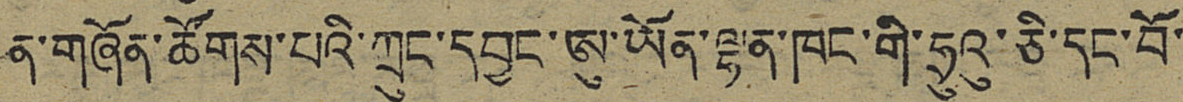ན་གཞོན་ཚོགས་པའི་ཀྲུང་དབྱང་ཨུ་ཡོན་ལྷན་ཁང་གི་ཧྲུའུ་ཅི་དང་བོ་
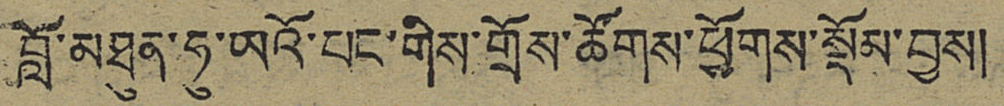བློ་མཐུན་ཧུ་ཡའོ་པང་གིས་གྲོས་ཚོགས་ཕྱོགས་སྡོམ་བྱས།
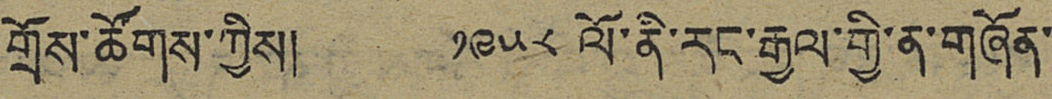གྲོས་ཚོགས་ཀྱིས། ༡༩༥༨ ལོ་ནི་རང་རྒྱལ་གྱི་ན་གཞོན་
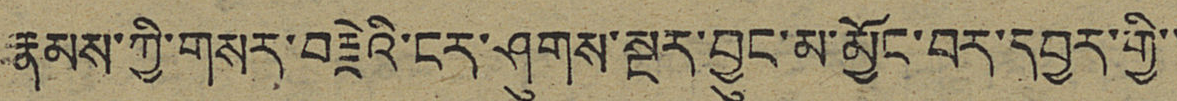རྣམས་ཀྱི་གསར་བརྗེའི་ངར་ཤུགས་སྔར་བྱུང་མ་མྱོང་བར་དབྱར་གྱི་་
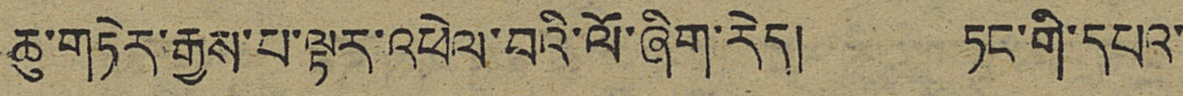ཆུ་གཏེར་རྒྱས་པ་ལྟར་འཕེལ་བའི་ལོ་ཞིག་རེད། ཏང་གི་དཔའ་
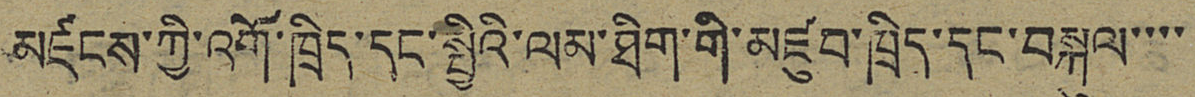མཛངས་ཀྱི་འགོ་ཁྲིད་དང་སྤྱིའི་ལམ་ཐིག་གི་མཛུབ་ཁྲིད་དང་བསྐུལ་་་་
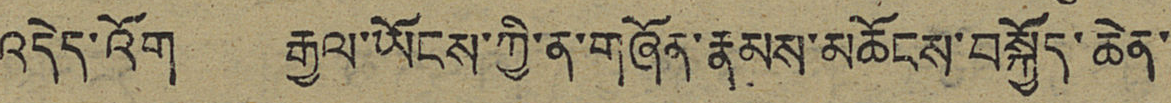འདེད་འོག རྒྱལ་ཡོངས་ཀྱི་ན་གཞོན་རྣམས་མཆོངས་བསྐྱོད་ཆེན་
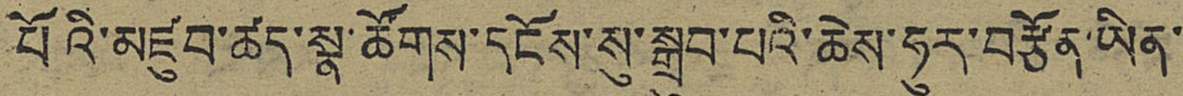པོའི་མཛུབ་ཚད་སྣ་ཚོགས་དངོས་སུ་སྒྲུབ་པའི་ཆེས་ཧུར་བརྩོན་ཡིན་
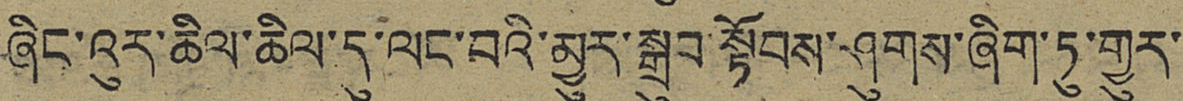ཞིང་འུར་ཆིལ་ཆིལ་དུ་ལང་བའི་མྱུར་སྒྲུབ་སྟོབས་ཤུགས་ཞིག་ཏུ་གྱུར་
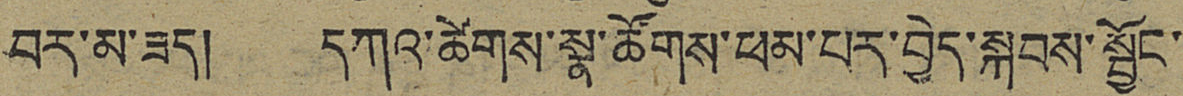བར་མ་ཟད། དཀའ་ཚེགས་སྣ་ཚོགས་ཕམ་པར་བྱེད་སྐབས་སྦྱོང་
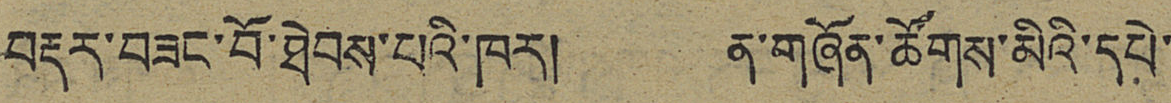བརྡར་བཟང་བོ་ཐེབས་པའི་ཁར། ན་གཞོན་ཚོགས་མིའི་དཔེ་
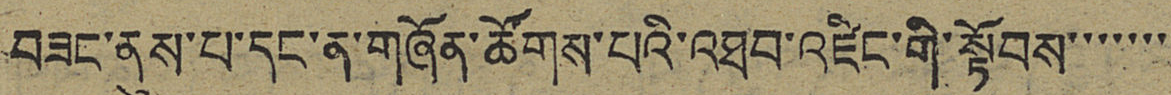བཟང་ནུས་པ་དང་ན་གཞོན་ཚོགས་པའི་འཐབ་འཛིང་གི་སྟོབས་་་་་་་་
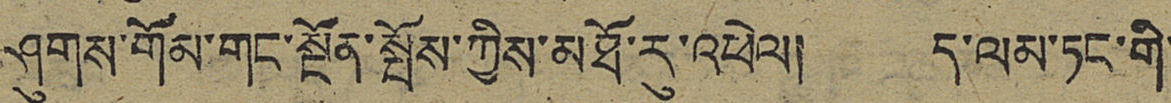ཤུགས་གོམ་གང་སྔོན་སྤོས་ཀྱིས་མཐོ་རུ་འཕེལ། ད་ལམ་ཏང་གི་
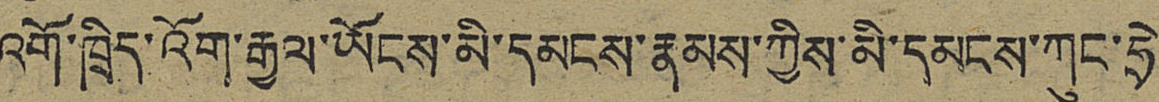འགོ་ཁྲིད་འོག་རྒྱལ་ཡོངས་མི་དམངས་རྣམས་ཀྱིས་མི་དམངས་ཀུང་ཧྲེ་
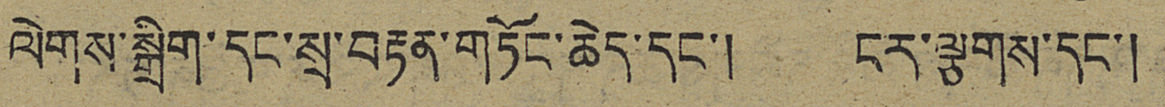ལེགས་སྒྲིག་དང་སྲ་བརྟན་གཏོང་ཆེད་དང་། ངར་ལྕགས་དང་།
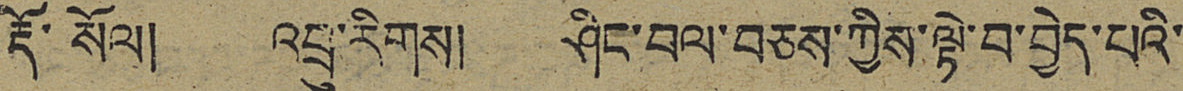རྡོ་སོལ། འབྲུ་རིགས། ཤིང་བལ་བཅས་ཀྱིས་ལྟེ་བ་བྱེད་པའི་
